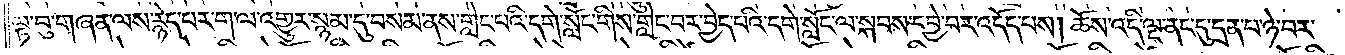ལྟ་བུ་གཞན་ལས་རྙེད་པར་ག་ལ་འགྱུར་སྙམ་དུ་བསམ་ནས་གླེང་པའི་དགེ་སློང་གིས་གླེང་བར་བྱེད་པའི་དགེ་སློང་ལ་སྐབས་དབྱེ་བར་འདོད་པས། ཆོས་འདི་ལྔ་ནང་དུ་དྲན་པ་ཉེ་བར་
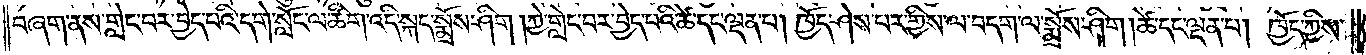བཞག་ནས་གླེང་བར་བྱེད་པའི་དགེ་སློང་ལ་ཚིག་འདི་སྐད་སྨྲོས་ཤིག །ཀྱེ་གླེང་བར་བྱེད་པའི་ཚེ་དང་ལྡན་པ། ཁྱོད་ཤེས་པར་གྱིས་ལ་བདག་ལ་སྨྲོས་ཤིག །ཚེ་དང་ལྡན་པ། ཁྱོད་ཀྱིས་
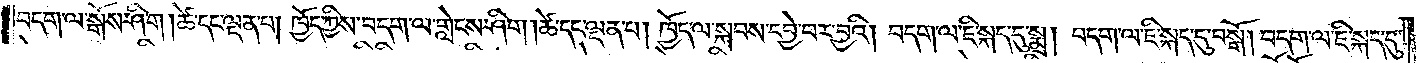བདག་ལ་སྒོས་ཤིག །ཚེ་དང་ལྡན་པ། ཁྱོད་ཀྱིས་བདག་ལ་གླེངས་ཤིག །ཚེ་དང་ལྡན་པ། ཁྱོད་ལ་སྐབས་དབྱེ་བར་བྱའོ། བདག་ལ་ཇི་སྐད་དུ་སྨྲ། བདག་ལ་ཇི་སྐད་དུ་བསྒོ། བདག་ལ་ཇི་སྐད་དུ་
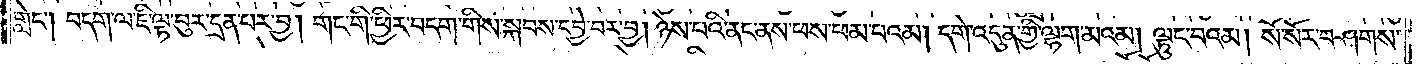གླེང༌། བདག་ལ་ཇི་ལྟ་བུར་དྲན་པར་བྱ། གང་གི་ཕྱིར་བདག་གིས་སྐབས་དབྱེ་བར་བྱ། ཉེས་པའི་ནང་ནས་ཕས་ཕམ་པའམ། དགེ་འདུན་གྱི་ལྷག་མའམ། ལྟུང་བའམ། སོ་སོར་བཤགས་
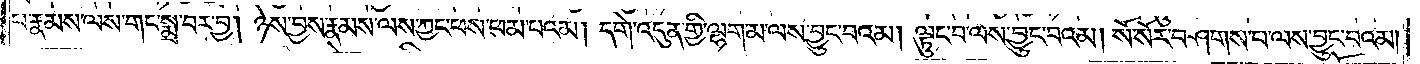པ་རྣམས་ལས་གང་སྨྲ་བར་བྱ། ཉེས་བྱས་རྣམས་ལས་ཀྱང་ཕས་ཕམ་པའམ། དགེ་འདུན་གྱི་ལྷག་མ་ལས་བྱུང་བའམ། ལྟུང་བ་ལས་བྱུང་བའམ། སོ་སོར་བཤགས་པ་ལས་བྱུང་བའམ།
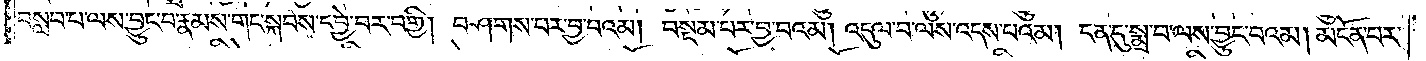བསླབ་པ་ལས་བྱུང་བ་རྣམས་གང་སྐབས་དབྱེ་བར་བགྱི། བཤགས་པར་བྱ་བའམ། བསྡམ་པར་བྱ་བ་བའམ། འདུལ་བ་ལས་འདས་པའམ། ངན་དུ་སྨྲ་བ་ལས་བྱུང་བའམ། མངོན་པར་
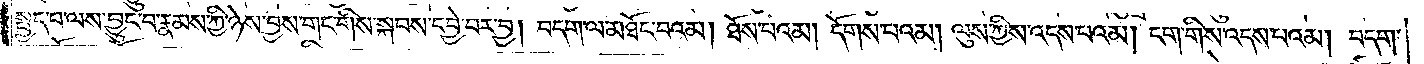སྤྱད་པ་ལས་བྱུང་བ་རྣམས་ཀྱི་ཉེས་བྱས་གང་གིས་སྐབས་དབྱེ་བར་བྱ། བདག་ལ་མཐོང་བའམ། ཐོས་པའམ། དོགས་པའམ། ལུས་ཀྱིས་འདས་པའམ། ངག་གིས་འདས་པའམ། བདག་
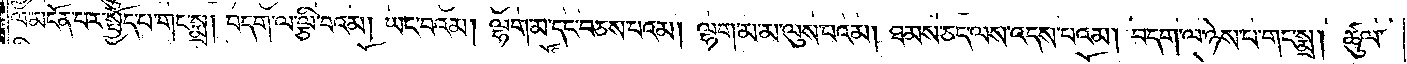ལ་མངོན་པར་སྤྱོད་པ་གང་སྨྲ། བདག་ལ་ལྕི་བའམ། ཡང་བའམ། ལྷག་མ་དང་བཅས་པའམ། ལྷག་མ་མ་ལུས་པའམ། ཐམས་ཅད་ལས་འདས་པའམ། བདག་ལ་ཉེས་པ་གང་སྨྲ། ཚུལ་
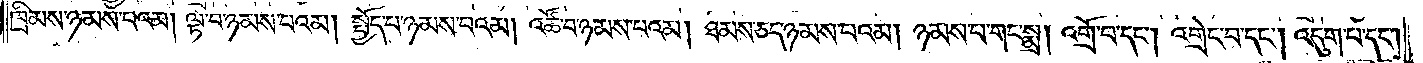ཁྲིམས་ཉམས་པའམ། ལྟ་བ་ཉམས་པའམ། སྤྱོད་པ་ཉམས་པའམ། འཚོ་བ་ཉམས་པའམ། ཐམས་ཅད་ཉམས་པའམ། ཉམས་པ་གང་སྨྲ། འགྲོ་བ་དང༌། འགྲེང་བ་དང༌། འདུག་པ་དང༌།
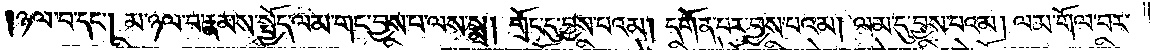ཉལ་བ་དང༌། མ་ཉལ་བ་རྣམས་སྤྱོད་ལམ་གང་བྱས་པ་ལས་སྨྲ། གྲོང་དུ་བྱས་པའམ། དགོན་པར་བྱས་པའམ། ལམ་དུ་བྱས་པའམ། ལམ་གོལ་བར་
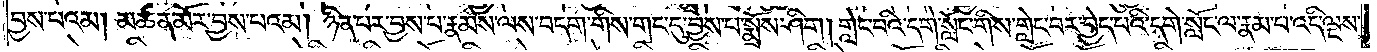བྱས་པའམ། མཚན་མོར་བྱས་པའམ། ཉིན་པར་བྱས་པ་རྣམས་ལས་བདག་གིས་གང་དུ་བྱས་པ་སྨྲོས་ཤིག །གླེང་བའི་དགེ་སློང་གིས་གླེང་བར་བྱེད་པའི་དགེ་སློང་ལ་རྣམ་པ་འདི་ལྔས་
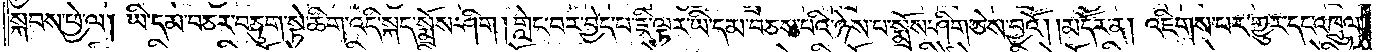སྐབས་ཕྱེ་ལ། ཡི་དམ་བཅར་བཅུག་སྟེ་ཚིག་འདི་སྐད་སྨྲོས་ཤིག །གླེང་བར་བྱེད་པ་ཇི་ལྟར་ཡི་དམ་བཅས་པའི་ཉེས་པ་སྨྲོས་ཤིག་ཅེས་བྱའོ། །མདོར་ན། འཇིགས་པར་གྱུར་དང་འཁྲུལ་
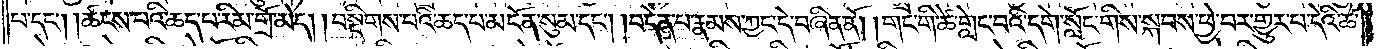པ་དང༌། །ཚངས་པའི་ཆད་པ་རིམ་གྲོ་མེད། །བསྡིགས་པའི་ཆད་པ་མངོན་སུམ་དང༌། །བདེན་པ་རྣམས་ཀྱང་དེ་བཞིན་ནོ། །གང་གི་ཚེ་གླེང་བའི་དགེ་སློང་གིས་སྐབས་ཕྱེ་བར་གྱུར་པ་དེའི་ཚེ་
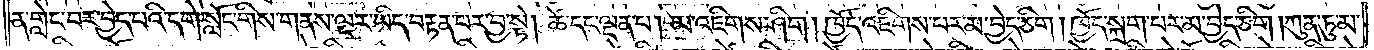ན་གླེང་བར་བྱེད་པའི་དགེ་སློང་གིས་གནས་ལྔར་ཡིད་བརྟན་པར་བྱ་སྟེ། ཚེ་དང་ལྡན་པ། མ་འཇིགས་ཤིག །ཁྱོད་འཇིགས་པར་མ་བྱེད་ཅིག། ཁྱོད་སྐྲག་པར་མ་བྱེད་ཅིག །ཀུན་ཏུ་མ་
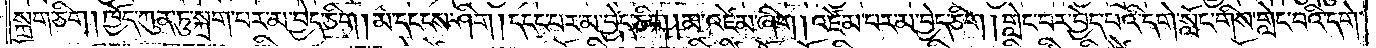སྐྲག་ཅིག །ཁྱོད་ཀུན་ཏུ་སྐྲག་པར་མ་བྱེད་ཅིག །མ་དངངས་ཤིག །དངང་པར་མ་བྱེད་ཅིག །མ་འཛེམ་ཞིག །འཛེམ་པར་མ་བྱེད་ཅིག །གླེང་བར་བྱེད་པའི་དགེ་སློང་གིས་གླེང་བའི་དགེ་
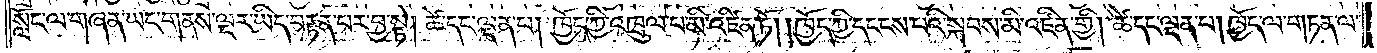སློང་ལ་གཞན་ཡང་གནས་ལྔར་ཡིད་བརྟན་པར་བྱ་སྟེ། ཚེ་དང་ལྡན་པ། ཁྱོད་ཀྱི་འཁྲུལ་པ་མི་འཛིན་ཏོ། །ཁྱོད་ཀྱི་དངངས་པའི་སྐབས་མི་འཛིན་གྱི། ཚེ་དང་ལྡན་པ། ཁྱོད་ལ་གཏན་ལ་
